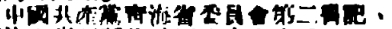中國共產黨靑海省委員會第二書記、
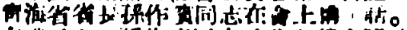靑海省省長孫作賓同志在會上講了話。
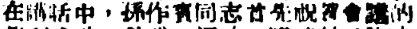在講話中，孫作賓同志首先祝賀會議的
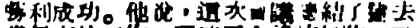勝利成功。他說，這次會議總結了過去
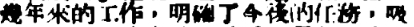幾年來的工作，明確了今後的任務，吸
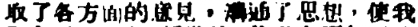取了各方面的意見，溝通了思想，使我
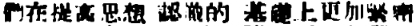們在提高思想 認識的 基礎上更加緊密
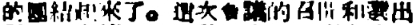的團結起來了。這次會議的召開和選出
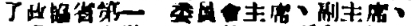了政協省第一屆委員會主席、副主席、
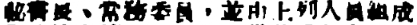祕書長、常務委員，並由上列人員組成
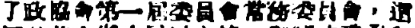了政協會第一屆委員會常務委員會，這
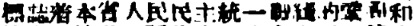標誌着本省人民民主統一戰綫的鞏固和
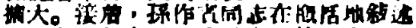擴大。接着，孫作賓同志在概括地敍述
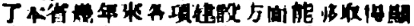了本省幾年來各項建設方面能够取得顯
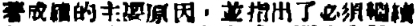著成績的主要原因，並指出了必須繼續
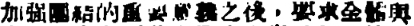加強團結的重要意義之後，要求全體與
